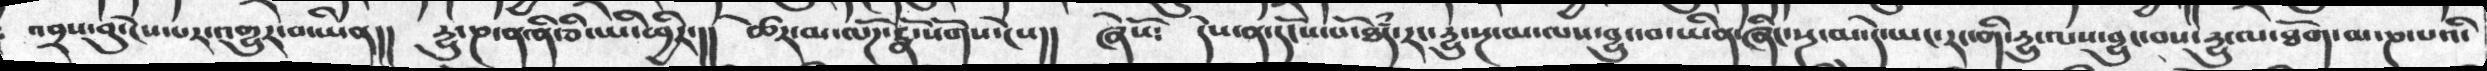འབྲས་བུ་ངེས་པར་འགྱུར་བ་ཡིན།། དྱུ་ཎ་ན་ནི་ཅི་ཡི་ཕྱིར་།། ཚེར་མ་ལོཌ་རྣོ་སོགས་ངེས།། ཞེསོ༴ དེས་ན་དངོས་པོ་ཐཾད་རང་དྱུད་སྔ་མ་ལས་བྱུང་བ་ཡིན་ཞིང་སྔ་མ་དེ་ཡང་རང་གི་དྱུ་ལས་བྱུང་བས་དྱུ་ལ་ཐོག་མ་ཎ་པའི་
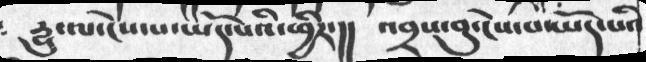དྱུ་ལ་ངེས་པ་ཡོད་པའི་ཕྱིར་།།  འབྲས་བུ་ངེས་པ་ཡོད་པའི
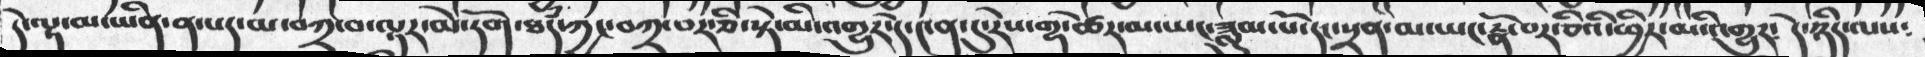དེ་ལྟ་མ་ཡིན་ན་པད་མ་བཀྲ་བ་ལྟར་མེ་ཏོག་ཐཾད་ཀྱང་བཀྲ་བར་ཅི་སྟེ་མི་འགྱུར་དེ་༤ན་དུ་རེས་གྷ་ཚེར་མ་ཡང་ཟླུུམ་པོ་དང་སྲན་མ་ཡང་རྣོ་བར་ཅིའི་ཕྱིར་མི་འགྱུར་ དེ་ཉིད་ལས༴
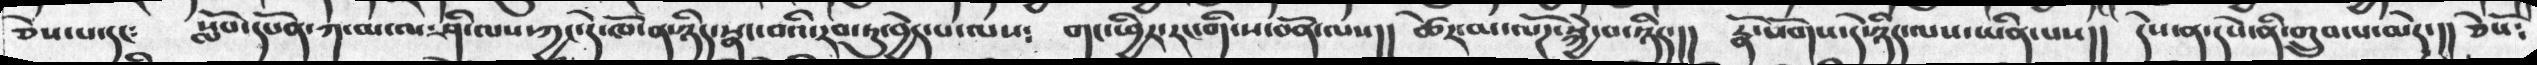ཅེས་པ་དང༴ སློབ་དཔོན་ཀ་མ་ལ་ཤི་ལས་ཀྱང་དེ་ཁོ་ན་ཉིད་སྣང་བའི་རབ་ཏུ་བྱེད་པ་ལས༴ གང་ཕྱིར་རང་གིས་ས་བོན་ལས།། ཚེར་མ་ལོཌ་སྐྱེ་བ་ཉིད་།། རྣོ་སོགས་དེ་ཉིད་ལས་ཡིན་པས།། དེས་ན་དཔེ་ནི་གྲུབ་པ་མེད་།། ཅེསོ༴
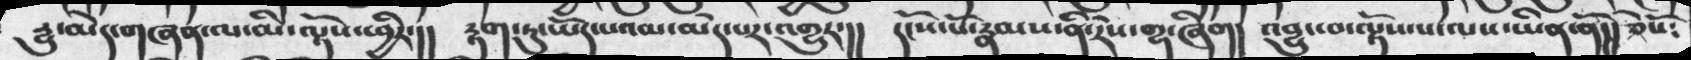དྱུ་མེད་གཞན་ལ་མི་ལྟོས་ཕྱིར་།།  རྟག་ཏུ་ཡོད་པའམ་མེད་པར་འགྱུར་།།   དངོས་པོ་རྣམས་ནི་རེས་གྷ་ཞིག། འབྱུང་བ་ལྟོས་པ་ལས་ཡིན་ནོ།། ཅེསོ༴
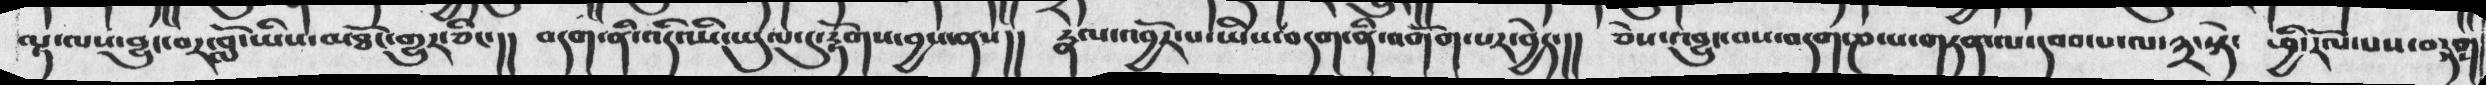ལྟ་ལས་བྱུང་བར་བློ་ཡིས་མཐོང་གྱུར་ཅིང་།། བདག་ནི་འདི་ཡི་ཡུལ་དུ་རྟོགས་བྱས་ནས།། རྣལ་འབྱོར་པ་ཡིས་བདག་ནི་འགོག་པར་བྱེད་།། ཅེས་འབྱུང་བས་བདག་ཎ་པ་གཏན་ལ་དབབ་པ་ལ་༣་སྟེ་ ཕྱི་རོལ་པས་བདག་
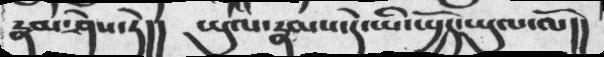རྣམ་ཤེས་ཏེ།།  ཡུལ་རྣམས་དེ་ཡི་སྤྱོད་ཡུལ་ལོ།།
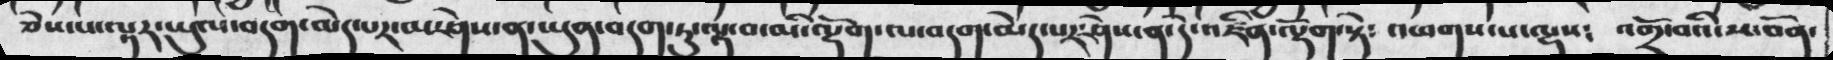ཅེས་པ་ལྟར་ཡུལ་བདག་མེད་པར་མ་ཤེས་ན་ཡུན་བདག་ཏུ་ལྟ་བ་མི་ལྡོག་ལ་བདག་མེད་པར་ཤེས་ན་དེ་འཛིན་ལྡོག་སྟེ༴ འཕགས་པ་ལྷས༴ འགྲོ་བའི་ས་བོན་
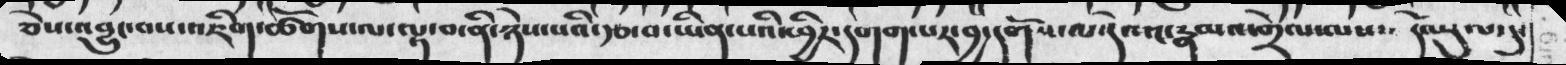ཅེས་འབྱུང་བས་འཇིག་ཚོགས་ལ་ལྟ་བ་ནི་ཉེས་པའི་རྩ་བ་ཡིན་པའི་ཕྱིར་དགག་པར་བྱ་དགོས་ལ་དེལའང་རྣམས་གྲེལ་ལས༴  དེ་ཡུལ་དུ
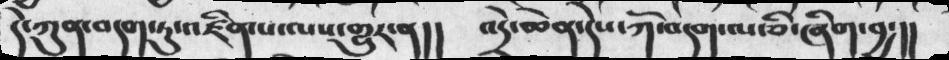དེ་ཀུན་བདག་ཏུ་འཛིན་པ་ལས་གྱུར་ན།།  འདྲེ་ཆེན་དེས་ཀོ་བདག་ལ་ཅི་ཞིག་བྱ་།།
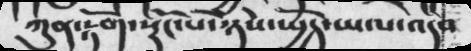ཀུན་རྟོག་སྡོང་པོ་ཉེས་སྤྱོད་ཡལ་འདབ
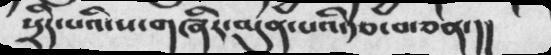སྲིད་པའི་ས་གཞིར་བདུན་པའི་རྩ་བ་ཅན་།།
